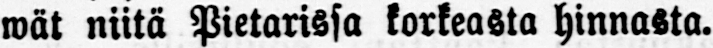wät niitä Pietarissa korkeasta hinnasta.
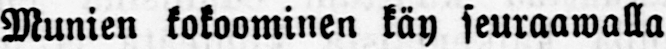Munien kokoominen käy seuraawalla
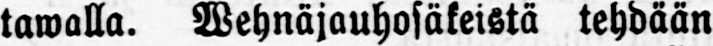lawalla. Wehnäjauhosäkeistä tehdään
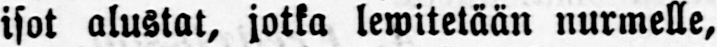isot alustat, jotka lewitetään nurmelle,
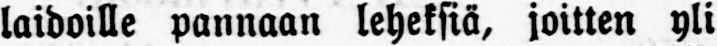laidoille pannaan leheksiä, joitten yli
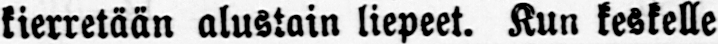kierretään alustain liepeet. Kun keskelle
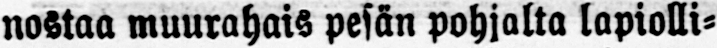nostaa muurahais pesän pohjalta lapiolli-
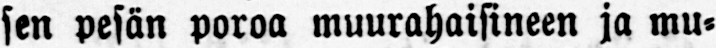sen pesän poroa muurahaisineen ja mu-
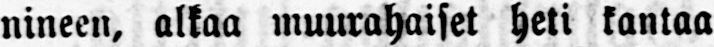nineen, alkaa muurahaiset heti kantaa
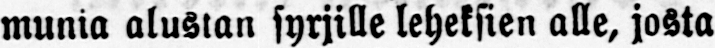munia alustan syrjille leheksien alle, josta
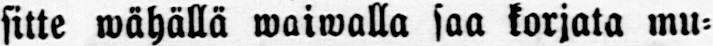sitte wähällä waiwalla saa korjata mu-
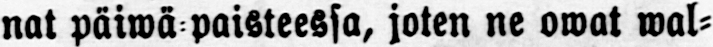nat päiwä paisteessa, joten ne owat wal-
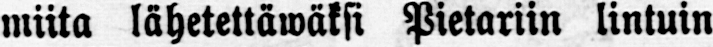miita lähetettäwäksi Pietariin lintuin
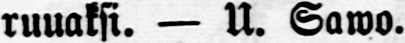ruuaksi. — U. Sawo.
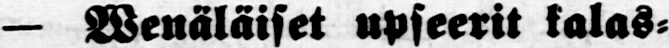— Wenäläiset upseerit kalas-
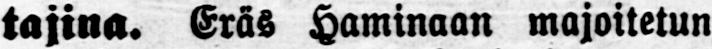tajina. Eräs Haminaan majoitetun
